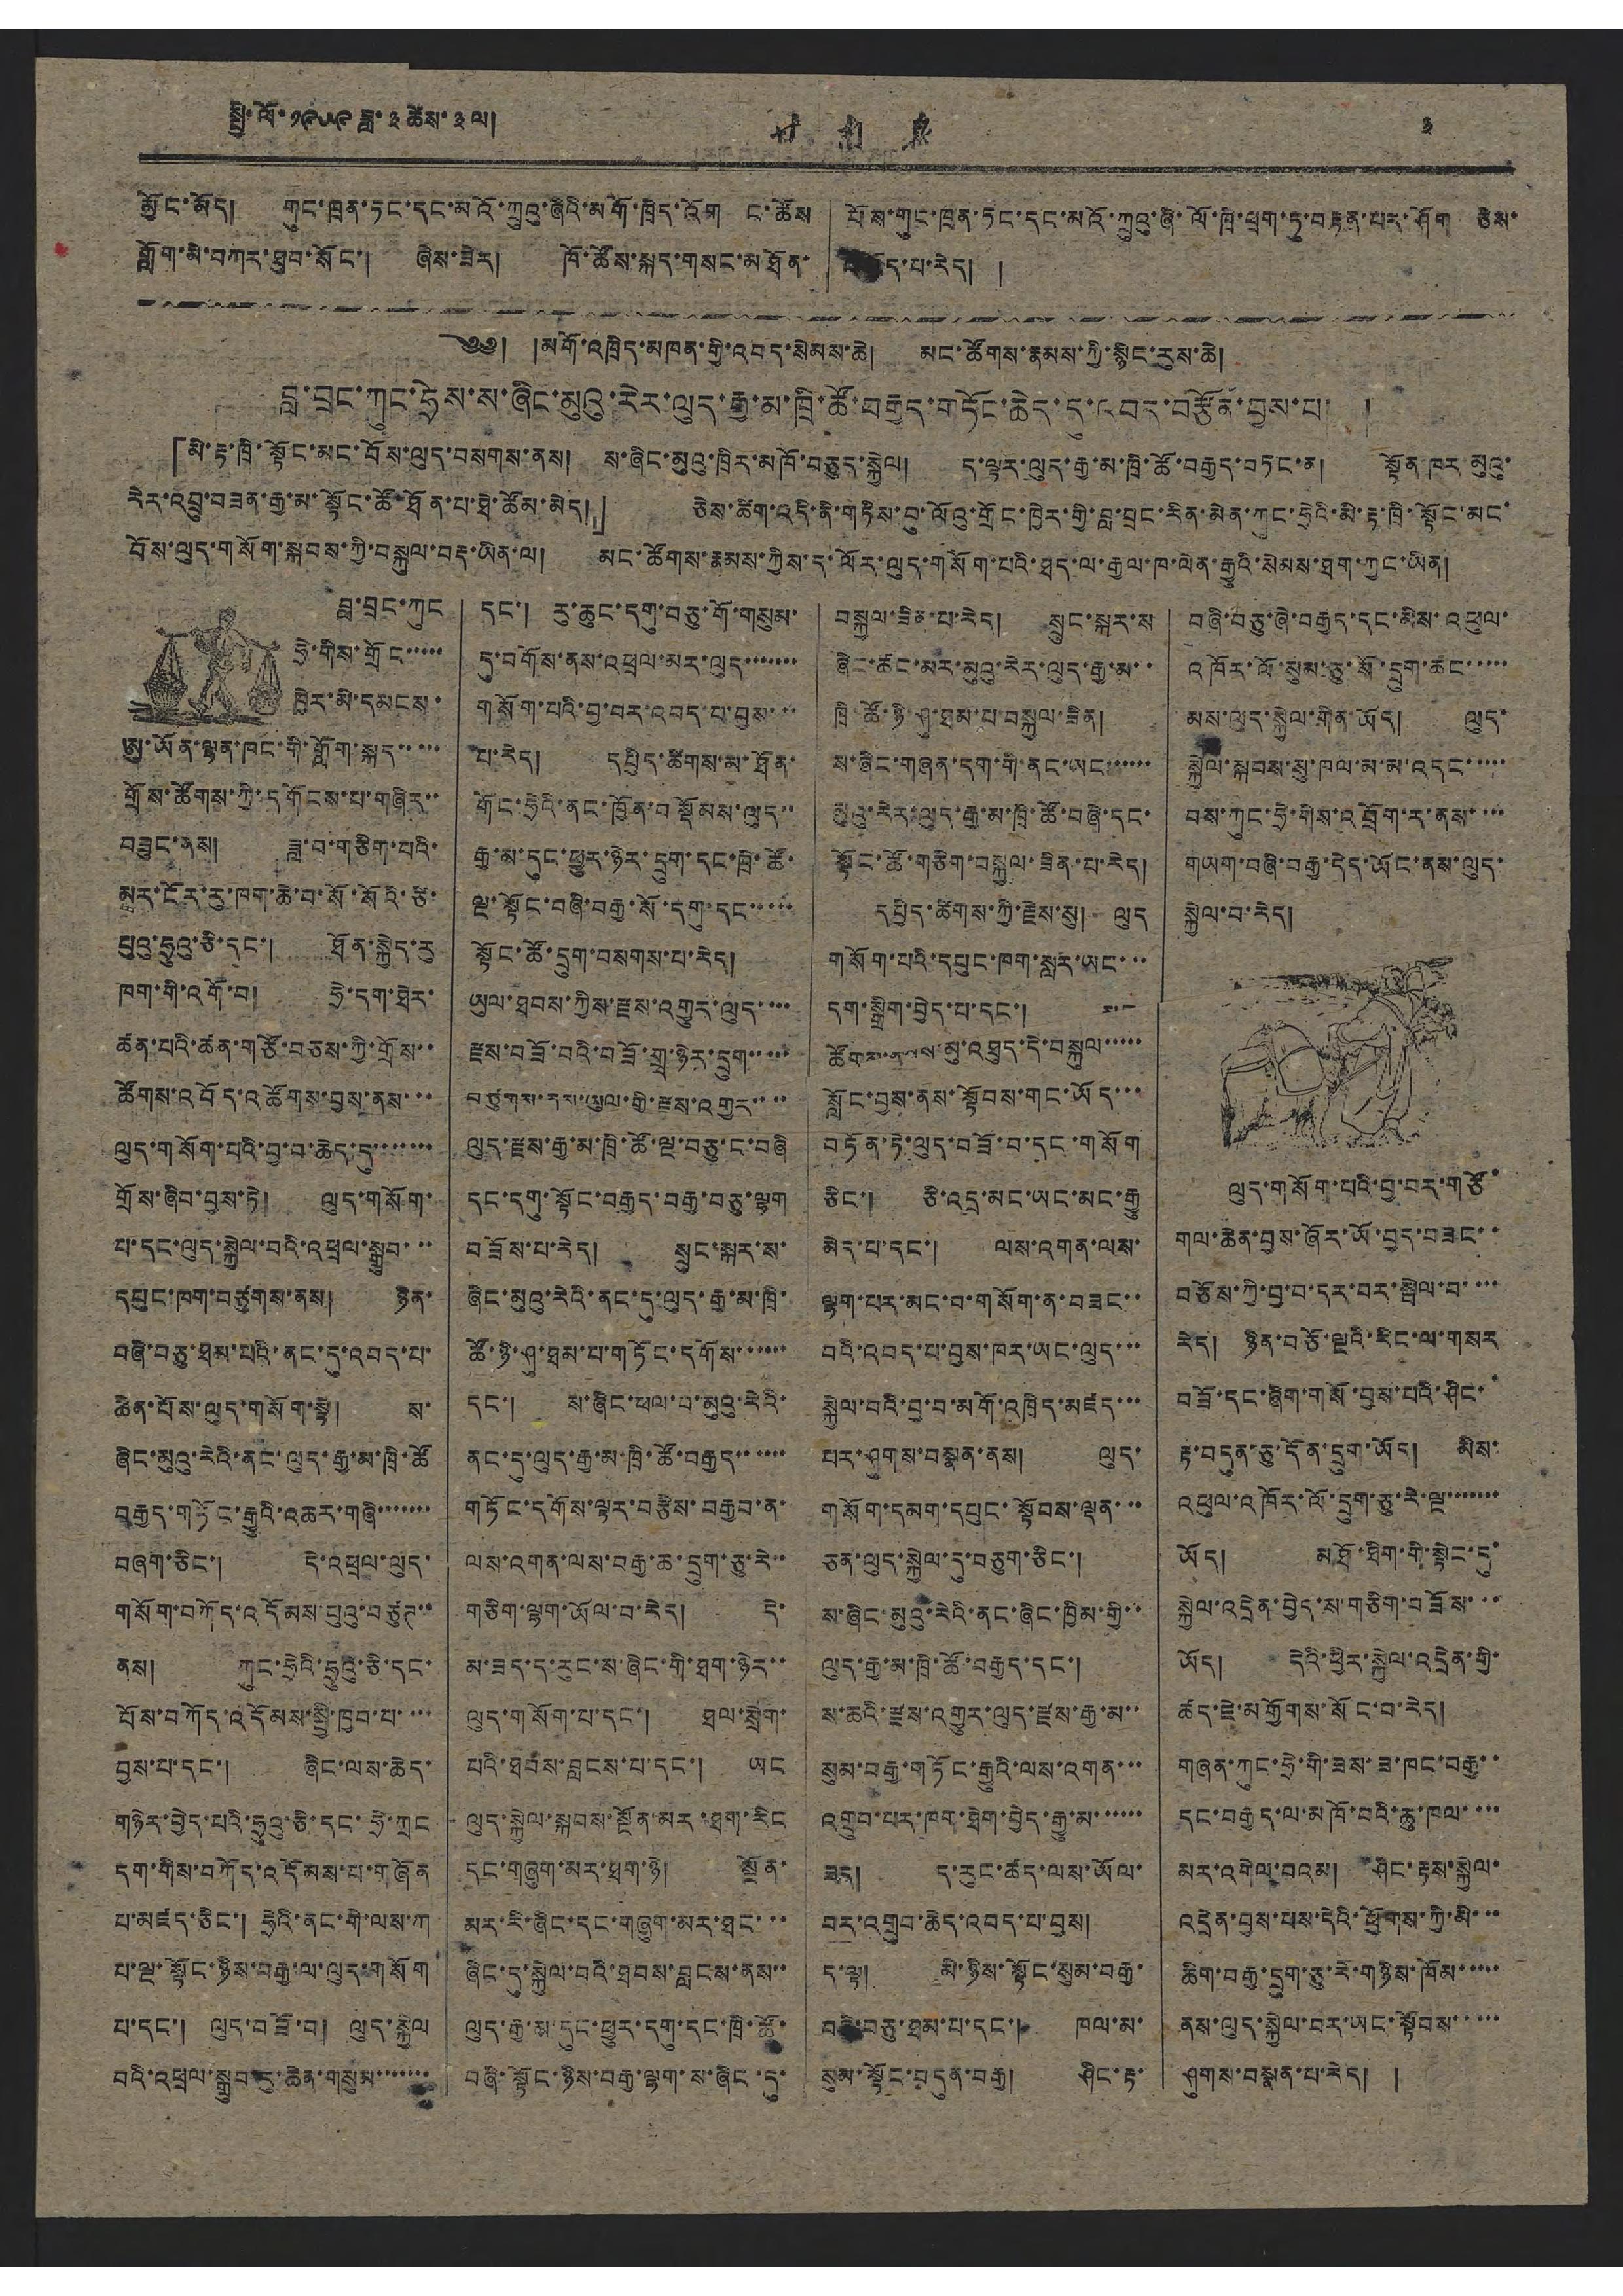སྤྱི་ལོ་ ༡༩༥༩ ཟླ་ ༣ ཚེས་ ༣ ལ། 甘 南 報 ༣
མྱོང་མོད། གུང་ཁྲན་ཏང་དང་མའོ་ཀྲུའུ་ཞིའི་མགོ་ཁྲིད་འོག ང་ཚོས
གློག་མེ་བཀར་ཐུབ་སོང་། ཞེས་ཟེར། ཁོ་ཚོས་སྐད་གསང་མཐོན་
པོས་གུང་ཁྲན་ཏང་དང་མའོ་ཀྲུའུ་ཞི་ལོ་ཁྲི་ཕྲག་ཏུ་བརྟན་པར་ཤིག ཅེས་
འཇོད་པ་རེད། །
༄༅། །མགོ་འཁྲིད་མཁན་གྱི་འབད་སེམས་ཆེ། མང་ཚོགས་རྣམས་ཀྱི་སྙིང་རུས་ཆེ།
བླ་བྲང་ཀུང་ཧྲེས་ས་ཞིང་མུའུ་རེར་ལུད་རྒྱ་མ་ཁྲི་ཚོ་བརྒྱད་གཏོང་ཆེད་དུ་འབད་བརྩོན་བྱས་པ། །
「མེ་རྟ་ཁྲི་སྟོང་མང་བོས་ལུད་བསགས་ནས། ས་ཞིང་མུའུ་ཁྲིར་མཁོ་བཅུད་སྐྱེལ། ད་ལྟར་ལུད་རྒྱ་མ་ཁྲི་ཚོ་བརྒྱད་བཏང་ན། སྟོན ཁར མུའུ་
རེར་འབྲུ་བཟན་རྒྱ་མ་སྟོང་ཚོ་ཐོན་པ་ཐེ་ཚོམ་མེད།」 ཅེས་ཚིག་འདི་ནི་གཏིས་བུ་ལོའུ་གྲོང་ཁྱེར་གྱི་བླ་བྲང་རིན་མེན་ཀུང་ཧྲེའི་མི་རྟ་ཁྲི་སྟོང་མང་
བོས་ལུད་གསོག་སྐབས་ཀྱི་བསྐུལ་བརྡ་ཡིན་ལ། མང་ཚོགས་རྣམས་ཀྱིས་ད་ལོར་ལུད་གསོག་བའི་ཐད་ལ་རྒྱལ་ཁ་ལེན་རྒྱུའི་སེམས་ཐག་ཀྱང་ཡིན།
བླ་བྲང་ཀུང
ཧྲེ་གིས་གྲོང་་་་་
ཁྱེར་མི་དམངས་
ཨུ་ཡོན་ལྷན་ཁང་གི་གློག་སྐད་་་་་
གྲོས་ཚོགས་ཀྱི་དགོངས་པ་གཞིར་་
བཟུང་ནས། ཟླ་བ་གཅིག་པའི་
མར་ངོར་རུ་ཁག་ཆེ་བ་སོ་སོའི་ཙི་
པུའུ་ཧྲུའུ་ཅི་དང་། ཐོན་སྐྱེད་རུ
ཁག་གི་འགོ་བ། ཧྲེ་དག་ཐེར་
ཚན་པའི་ཚན་གཙོ་བཅས་ཀྱི་གྲོས་་
ཚོགས་འབོད་འཚོགས་བྱས་ནས་་་
ལུད་གསོག་པའི་བྱ་བ་ཆེད་དུ་་་་་་་
གྲོས་ཞིབ་བྱས་ཏེ། ལུད་གསོག་
པ་དང་ལུད་སྐྱེལ་བའི་འཕྲལ་སྒྲུབ་་་
དཔུང་ཁག་བཙུགས་ནས། ཉིན་
བཞི་བཅུ་ཐམ་པའི་ནང་དུ་འབད་པ་
ཆེན་པོས་ལུད་གསོག་སྟེ། ས་
ཞིང་མུའུ་རེའི་ནང་ལུད་རྒྱ་མ་ཁྲི་ཚོ
བརྒྱད་གཏོང་རྒྱུའི་འཆར་གཞི་་་་་་་
བཞག་ཅིང་། དེ་འཕྲལ་ལུད་
གསོག་བཀོད་འདོམས་པུའུ་བཙུཊ་་
ནས། ཀུང་ཧྲེའི་ཧྲུའུ་ཅི་དང་
པོས་བཀོད་འདོམས་སྤྱི་ཁྱབ་པ་་་་
བྱས་པ་དང་། ཞིང་ལས་ཆེད་
གཉེར་བྱེད་པའི་ཧྲུའུ་ཅི་དང་ཧྲེ་ཀྲང
དག་གིས་བཀོད་འདོམས་པ་གཞོན
པ་མཛད་ཅིང་། ཧྲེའི་ནང་གི་ལས་ཀ
པ་ལྔ་སྟོང་ཉིས་བརྒྱ་ལ་ལུད་གསོག
པ་དང་། ལུད་བཟོ་བ། ལུད་སྐྱེལ
བའི་འཕྲལ་སྒྲུབ་རུ་ཆེན་གསུམ་་་་་་་
དང་། རུ་ཆུང་དགུ་བཅུ་གོ་གསུམ་
དུ་བགོས་ནས་འཕྲལ་མར་ལུད་་་་་་་
གསོག་པའི་བྱ་བར་འབད་པ་བྱས་་་
པ་རེད། དཔྱིད་ཚོགས་མ་ཐོན་
གོང་ཧྲེའི་ནང་ཁྱོན་བསྡོམས་ལུད་་
རྒྱ་མ་དུང་ཕྱུར་ཉེར་དྲུག་དང་ཁྲི་ཚོ་
ལྔ་སྟོང་བཞི་བརྒྱ་སོ་དགུ་དང་་་་་
སྟོང་ཚོ་དྲུག་བསགས་པ་རེད།
ཡུལ་ཐབས་ཀྱིས་རྫས་འགྱུར་ལུད་་་་
རྫས་བཟོ་བའི་བཟོ་གྲྭ་ཉེར་དྲུག་་་་་
བཙུགས་ནས་ཡུལ་གྱི་རྫས་འགྱུར་་་་
ལུད་རྫས་རྒྱ་མ་ཁྲི་ཚོ་ལྔ་བཅུ་ང་བཞི
དང་དགུ་སྟོང་བརྒྱད་བརྒྱ་བཅུ་ལྷག
བཟོས་པ་རེད། སྲུང་སྐར་ས་
ཞིང་མུའུ་རེའི་ནང་དུ་ལུད་རྒྱ་མ་ཁྲི་
ཚོ་ཉི་ཤུ་ཐམ་པ་གཏོང་དགོས་་་་་་
དང་། ས་ཞིང་ཕལ་བ་མུའུ་རེའི་
ནང་དུ་ལུད་རྒྱ་མ་ཁྲི་ཚོ་བརྒྱད་་་་་་
གཏོང་དགོས་ལྟར་བརྩིས་བརྒྱབ་ན་
ལས་འགན་ལས་བརྒྱ་ཆ་དྲུག་ཅུ་རེ་་
གཅིག་ལྷག་ཡོལ་བ་རེད། དེ་
མ་ཟད་ད་རུང་ས་ཞིང་གི་ཐག་ཉེར་་
ལུད་གསོག་པ་དང་། ཐལ་སྲེག་
པའི་ཐབས་བླངས་པ་དང་། ཡང
ལུད་སྐྱེལ་སྐབས་སྔོན་མར་ཐག་རིང
དང་གཞུག་མར་ཐག་ཉེ། སྔོན་
མར་རི་ཞིང་དང་གཞུག་མར་ཐང་་་
ཞིང་དུ་སྐྱེལ་བའི་ཐབས་བླངས་ནས་་
ལུད་རྒྱ་མ་དུང་ཕྱུར་དགུ་དང་ཁྲི་ཚོ་
བཞི་སྟོང་ཉིས་བརྒྱ་ལྷག་ས་ཞིང་དུ་
བསྐྱལ་ཟིན་པ་རེད། སྲུང་སྐར་ས
ཞིང་ཚང་མར་མུའུ་རེར་ལུད་རྒྱ་མ་་
ཁྲི་ཚོ་ཉི་ཤུ་ཐམ་པ་བསྐྱལ་ཟིན།
ས་ཞིང་གཞན་དག་གི་ནང་ཡང་་་་་་
མུའུ་རེར་ལུད་རྒྱ་མ་ཁྲི་ཚོ་བཞི་དང་
སྟོང་ཚོ་གཅིག་བསྐྱལ་ཟིན་པ་རེད།
དཔྱིད་ཚིགས་ཀྱི་རྗེས་སུ། ལུད
གསོག་པའི་དཔུང་ཁག་སླར་ཡང་་་
དག་སྒྲེག་བྱེད་པ་དང་། མང
ཚོགས་རྣམས་མུ་འཐུད་དེ་བསྐུལ་་་་་
སློང་བྱས་ནས་སྟོབས་གང་ཡོད་་་
བཏོན་ཏེ་ལུད་བཟོ་བ་དང་གསོག
ཅིང་། ཅི་འདྲ་མང་ཡང་མང་རྒྱུ
མེད་པ་དང་། ལས་འགན་ལས་
ལྷག་པར་མང་བ་གསོག་ན་བཟང་་
བའི་འབད་པ་བྱས་ཁར་ཡང་ལུད་་་
སྐྱེལ་བའི་བྱ་བ་མགོ་འཁྲིད་མཛད་་་
པར་ཤུགས་བསྣན་ནས། ལུད་
གསོག་དམག་དཔུང་སྟོབས་ལྡན་་་
ཅན་ལུད་སྐྱེལ་དུ་བཅུག་ཅིང་།
ས་ཞིང་མུའུ་རེའི་ནང་ཞིང་ཁྱིམ་གྱི་་
ལུད་རྒྱ་མ་ཁྲི་ཚོ་བརྒྱད་དང་།
ས་ཆའི་རྫས་འགྱུར་ལུད་རྫས་རྒྱ་མ་་
སུམ་བརྒྱ་གཏོང་རྒྱུའི་ལས་འགན་་་
འགྲུབ་པར་ཁག་ཐེག་བྱེད་རྒྱུ་མ་་་་་་
ཟད། ད་རུང་ཚད་ལས་ཡོལ་
བར་འགྲུབ་ཆེད་འབད་པ་བྱས།
ད་ལྟ། མི་ཉིས་སྟོང་སུམ་བརྒྱ་
བཞི་བཅུ་ཐམ་པ་དང་། ཁལ་མ་
སུམ་སྟོང་བདུན་བརྒྱ། ཤིང་རྟ་
བཞི་བཅུ་ཞེ་བརྒྱད་དང་མིས་འཕུལ་
འཁོར་ལོ་སུམ་ཅུ་སོ་དྲུག་ཚང་་་་་
མས་ལུད་སྐྱེལ་གིན་ཡོད། ལུད་
སྐྱེལ་སྐབས་སུ་ཁལ་མ་མ་འདང་་་་་
བས་ཀུང་ཧྲེ་གིས་འབྲོག་ར་ནས་་་་
གཡག་བཞི་བརྒྱ་དེད་ཡོང་ནས་ལུད་
སྐྱེལ་བ་རེད།
ལུད་གསོག་པའི་བྱ་བར་གཙོ་
གལ་ཆེན་བྱས་ཞོར་ཡོ་བྱད་བཟང་་
བཅོས་ཀྱི་བྱ་བ་དར་བར་སྤེལ་བ་་་་
རེད། ཉིན་བཅོ་ལྔའི་རིང་ལ་གསར
བཟོ་དང་ཞིག་གསོ་བྱས་པའི་ཤིང་
རྟ་བདུན་ཅུ་དོན་དྲུག་ཡོད། མིས་
འཕུལ་འཁོར་ལོ་དྲུག་ཅུ་རེ་ལྔ་་་་་་་
ཡོད། མཐོ་ཐིག་གི་སྟེང་དུ་
སྐྱེལ་འདྲེན་བྱེད་ས་གཅིག་བཟོས་་་
ཡོད། དེའི་ཕྱིར་སྐྱེལ་འདྲེན་གྱི་
ཚད་ཇེ་མགྱོགས་སོང་བ་རེད།
གཞན་ཀུང་ཧྲེ་གི་ཟས་ཟ་ཁང་བརྒྱ་་
དང་བརྒྱད་ལ་མཁོ་བའི་ཆུ་ཁལ་་་་
མར་འགེལ་བའམ། ཤིང་རྟས་སྐྱེལ་
འདྲེན་བྱས་པས་དེའི་ཕྱོགས་ཀྱི་མི་་་
ཆིག་བརྒྱ་དྲུག་ཅུ་རེ་གཉིས་ཁོམ་་་་་
ནས་ལུད་སྐྱེལ་བར་ཡང་སྟོབས་་་་་
ཤུགས་བསྣན་པ་རེད། །
